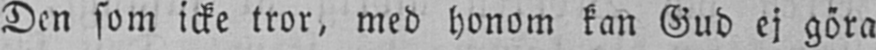Den som icke tror, med honom kan Gud ej göra
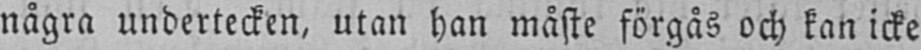några undertecken, utan han måste förgås och kan icke
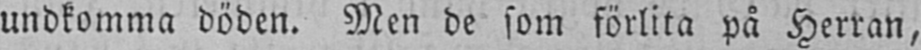undkomma döden. Men de som förlita på Herran,
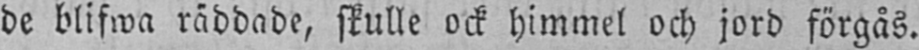de blifwa räddade, skulle ock himmel och jord förgås.
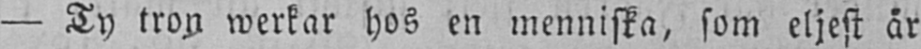— Ty tron werkar hos en menniska, som eljest är
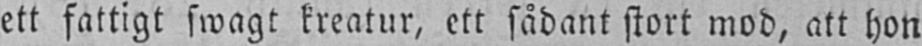ett fattigt swagt kreatur, ett sådant stort mod, att hon
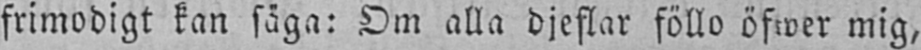frimodigt kan säga: Om alla djeflar föllo öfwer mig,
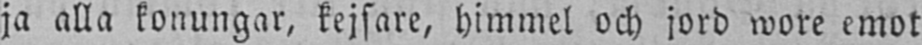ja alla konungar, kejsare, himmel och jord wore emot
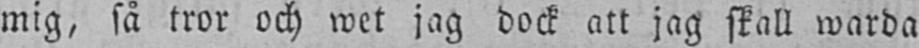mig, så tror och wet jag dock att jag skall warda
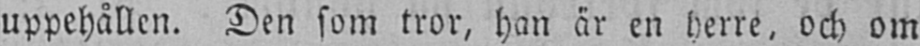uppehållen. Den som tror, han är en herre, och om
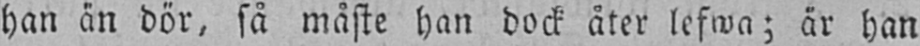han än dör, så måste han dock åter lefwa; är han
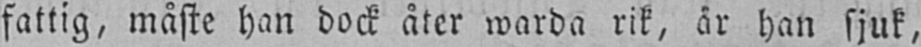fattig, måste han dock åter warda rik, är han sjuk,
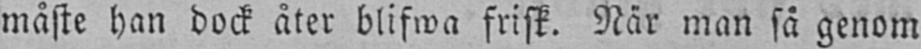måste han dock åter blifwa frisk. När man så genom
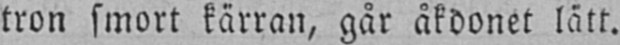tron smort kärran, går åkdonet lätt.
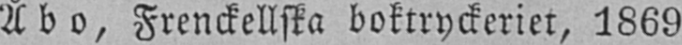Å b o, Frenckellska boktryckeriet, 1869
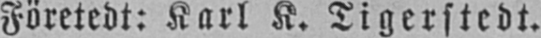Företedt: Karl K. Tigerstedt.
